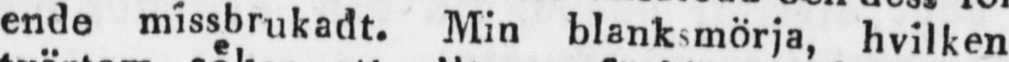ende missbrukadt. Min blanksmörja, hvilken jag
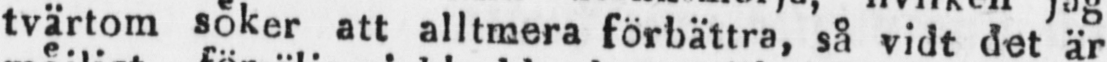tvärtom söker att alltmera förbättra, så vidt det är
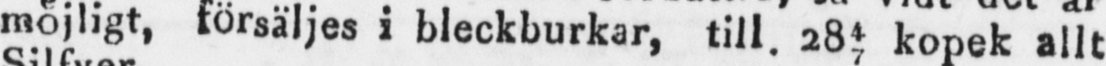möjligt, försäljes i bleckburkar, till 28 kopek allt
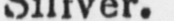Silfver.
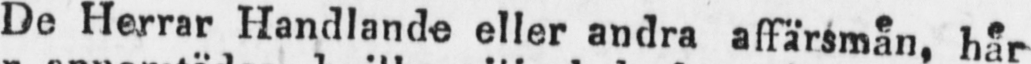De Herrar Handlande eller andra affärsmän, här
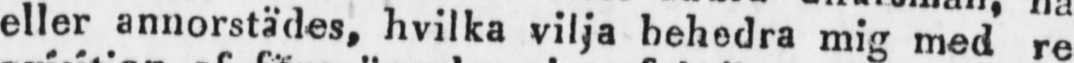eller annorstädes, hvilka vilja behedra mig med re-
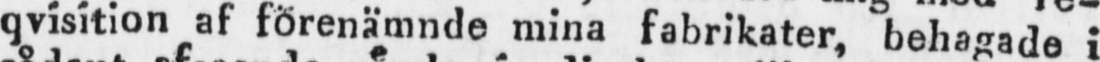qvisition af förenämnde mina fabrikater, behagade i
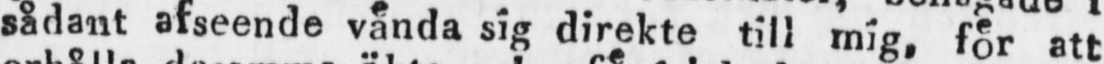sådant afseende vända sig direkte till mig, för att
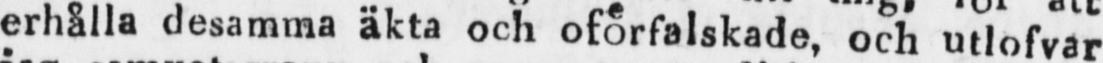erhålla desamma äkta och oförfalskade, och utlofvar
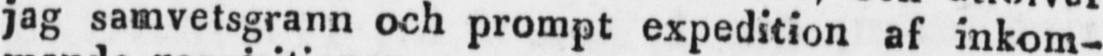jag samvetsgrann och prompt expedition af inkom-
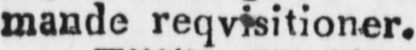mande reqvisitioner.
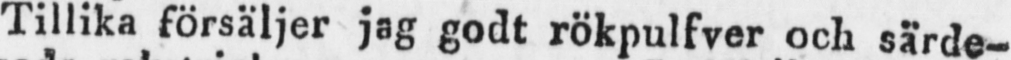Tillika försäljer jag godt rökpulfver och särde-
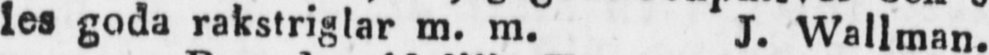les goda rakstriglar m. m. J. Wallman.
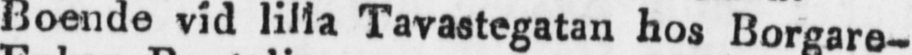Boende vid lilla Tavastegatan hos Borgare-
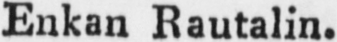Enkan Rautalin.
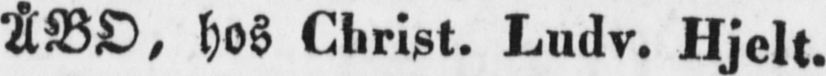ÅBO, hos Christ. Ludv. Hjelt.
